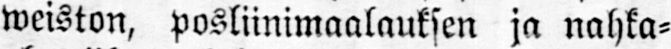weiston, posliinimaalauksen ja nahka-
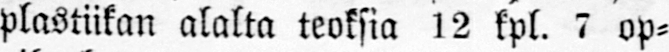plastiikan alalta teoksia 12 kpl. 7 op-
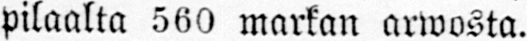pilaalta 560 markan arwosta.
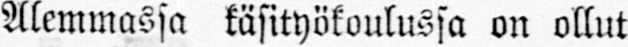Alemmassa käsityökoulussa on ollut
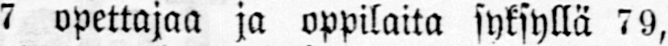7 opettajaa ja oppilaita syksyllä 79,
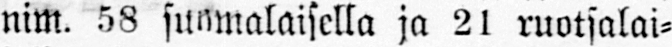nim. 58 suomalaisella ja 21 ruotsalai-
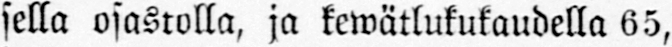sella osastolla, ja kewätlukukaudella 65,
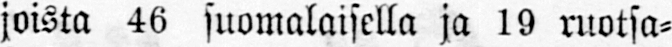joista 46 suomalaisella ja 19 ruotsa-
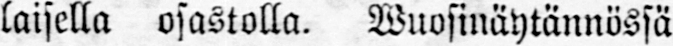laisella osastolla. Wuosinäytännössä
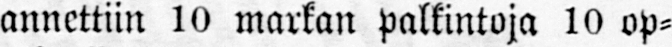annettiin 10 markan palkintoja 10 op-
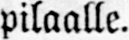pilaalle.
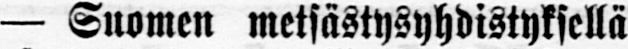— Suomen metsästysyhdistyksellä
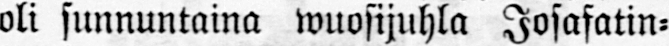oli sunnuntaina wuosijuhla Josafatin-
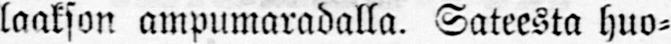laakson ampumaradalla. Sateesta huo-
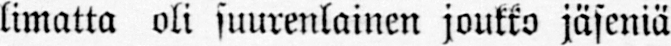limatta oli suurenlainen joukko jäseniä
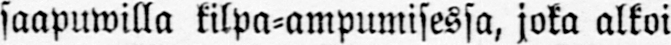saapuwilla kilpa-ampumisessa, joka alkoi
